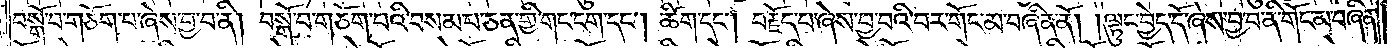བསྒོ་བ་གཅོག་པ་ཞེས་བྱ་བ་ནི། བསྒོ་བ་གཅོག་པའི་བསམ་པ་ཅན་གྱི་གང་ངག་དང༌། ཚིག་དང༌། བརྗོད་པ་ཞེས་བྱ་བའི་བར་གོང་མ་བཞིན་ནོ། །ལྟུང་བྱེད་དོ་ཞེས་བྱ་བ་ནི་གོང་མ་བཞིན་
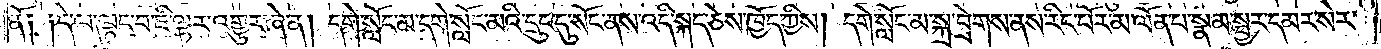ནོ། །དེ་ལ་ལྟུང་བ་ཇི་ལྟར་འགྱུར་ཞེ་ན། དགེ་སློང་མ་དགེ་སློང་མའི་དྲུང་དུ་སོང་ནས་འདི་སྐད་ཅེས་ཁྱོད་ཀྱིས། དགེ་སློང་མ་སྐྲ་བྲེགས་ནས་རིང་པོར་མ་ལོན་པ་སྣམ་སྦྱར་དམར་སེར་
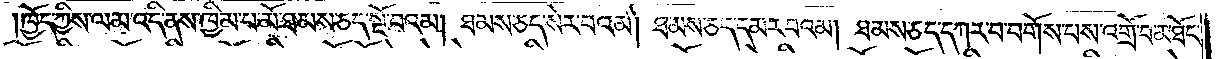ཁྱོད་ཀྱིས་ལམ་འདི་ནས་ཁྱིམ་པ་མོ་ཐམས་ཅད་སྔོ་བའམ། ཐམས་ཅད་སེར་བའམ། ཐམས་ཅད་དམར་བའམ། ཐམས་ཅད་དཀར་བ་བགོས་པས་འགྲོ་བ་མཐོང་
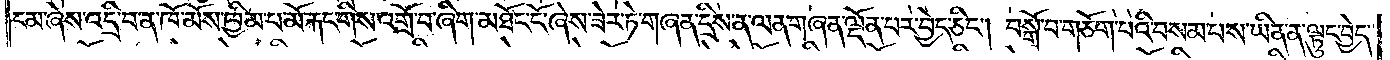ངམ་ཞེས་འདྲི་བ་ན་ཁོ་མོས་ཁྱིམ་པ་མོ་རྐང་གིས་འགྲོ་བ་ཞིག་མཐོང་ངོ་ཞེས་ཟེར་ཏེ་གཞན་དྲིས་ན་ལན་གཞན་ལྡོན་པར་བྱེད་ཅིང༌། བསྒོ་བ་གཅོག་པའི་བསམ་པས་ཡིན་ན་ལྟུང་བྱེད་
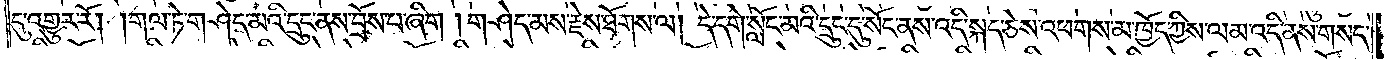དུ་འགྱུར་རོ། །གལ་ཏེ་གཤེད་མའི་དྲུང་ནས་བྲོས་པ་ཞིག །གཤེད་མས་རྗེས་ཐོགས་ལ། དེ་དགེ་སློང་མའི་དྲུང་དུ་སོང་ནས་འདི་སྐད་ཅེས་འཕགས་མ་ཁྱོད་ཀྱིས་ལམ་འདི་ནས་གསད་
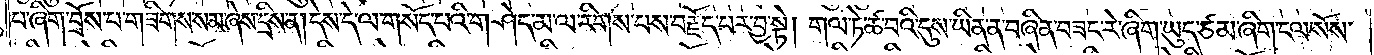པ་ཞིག་བྲོས་པ་གཟིགས་སམ་ཞེས་དྲིས་ན། དེས་དེ་ལ་གསོད་པའི་གཤེད་མ་ལ་རིགས་པས་བརྗོད་པར་བྱ་སྟེ། གལ་ཏེ་ཚ་བའི་དུས་ཡིན་ན་བཞིན་བཟང་རེ་ཞིག་ཡུད་ཙམ་ཞིག་ངལ་སོས་
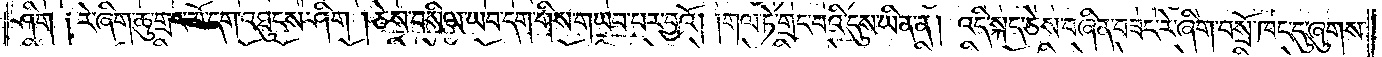ཤིག །རེ་ཞིག་ཆུ་གྲང་མོ་དག་འཐུངས་ཤིག །ཅེས་བསིལ་ཡབ་དག་གིས་གཡབ་པར་བྱའོ། །གལ་ཏེ་གྲང་བའི་དུས་ཡིན་ན། འདི་སྐད་ཅེས་བཞིན་བཟང་རེ་ཞིག་བསྲོ་ཁང་དུ་ཞུགས་
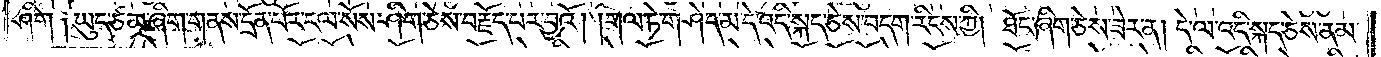ཤིག །ཡུད་ཙམ་ཞིག་གནས་དྲོན་པོར་ངལ་སོས་ཤིག་ཅེས་བརྗོད་པར་བྱའོ། །གལ་ཏེ་གཤེད་མ་དེ་འདི་སྐད་ཅེས་བདག་རིངས་ཀྱི། ཐོང་ཞིག་ཅེས་ཟེར་ན། དེ་ལ་འདི་སྐད་ཅེས་ནམ་
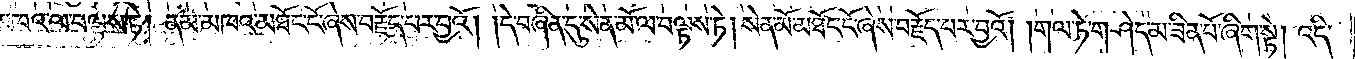མཁའ་ལ་བལྟས་ཏེ། ནམ་མཁའ་མཐོང་ངོ་ཞེས་བརྗོད་པར་བྱའོ། །དེ་བཞིན་དུ་སེན་མོ་ལ་བལྟས་ཏེ། སེན་མོ་མཐོང་ངོ་ཞེས་བརྗོད་པར་བྱའོ། །གལ་ཏེ་གཤེད་མ་ཟིན་པོ་ཞིག་སྟེ། འདི་
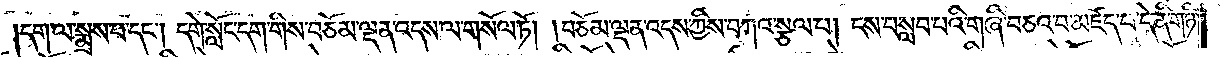ྀྃྃྃདག་ལ་སྨྲས་པ་དང༌། དགེ་སློང་དག་གིས་བཅོམ་ལྡན་འདས་ལ་གསོལ་ཏོ། །བཅོམ་ལྡན་འདས་ཀྱིས་བཀའ་སྩལ་པ། ངས་བསླབ་པའི་གཞི་བཅའ་བ་མཛད་པ་དེ་ནི་གཉི་
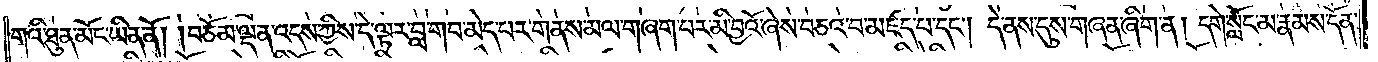གའི་ཐུན་མོང་ཡིན་ནོ། །བཅོམ་ལྡན་འདས་ཀྱིས་དེ་ལྟར་བླ་གབ་མེད་པར་གནས་མལ་གཞག་པར་མི་བྱའོ་ཞེས་བཅའ་བ་མཛད་པ་དང༌། དེ་ནས་དུས་གཞན་ཞིག་ན། དགེ་སློང་མ་རྣམས་དོན་
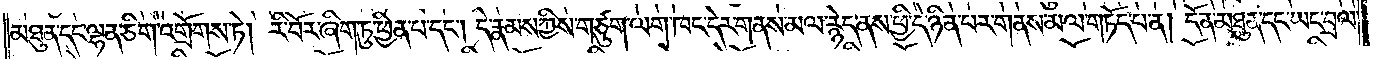མཐུན་དང་ལྷན་ཅིག་འགྲོགས་ཏེ། རི་བོར་ཞིག་ཏུ་ཕྱིན་པ་དང༌། དེ་རྣམས་ཀྱིས་གཙུག་ལག་ཁང་དེར་གནས་མལ་རྙེད་ནས་ཕྱི་དེ་ཉིན་པར་གནས་མལ་གཏོད་པ་ན། དོན་མཐུན་དང་ཡང་བྲལ་
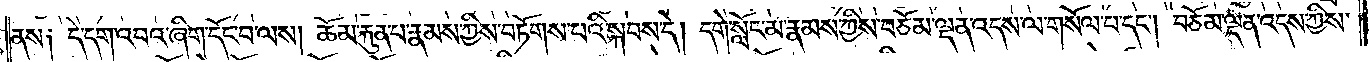ནས། དེ་དག་འབའ་ཞིག་དོང་བ་ལས། ཆོམ་རྐུན་པ་རྣམས་ཀྱིས་བཏོགས་པའི་སྐབས་དེ། དགེ་སློང་མ་རྣམས་ཀྱིས་བཅོམ་ལྡན་འདས་ལ་གསོལ་བ་དང༌། བཅོམ་ལྡན་འདས་ཀྱིས་
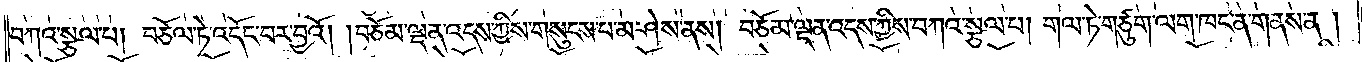བཀའ་སྩལ་པ། བཅོལ་ཏེ་འདོང་བར་བྱའོ། །བཅོམ་ལྡན་འདས་ཀྱིས་གསུངས་པ་མ་ཤེས་ནས། བཅོམ་ལྡན་འདས་ཀྱིས་བཀའ་སྩལ་པ། གལ་ཏེ་གཙུག་ལག་ཁང་ན་གནས་ན།
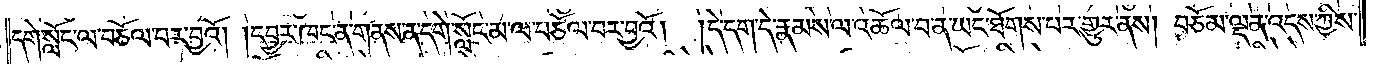དགེ་སློང་ལ་བཅོལ་བར་བྱའོ། །དབྱར་ཁང་ན་གནས་ན་དགེ་སློང་མ་ལ་བཅོལ་བར་བྱའོ། །དེ་དག་དེ་རྣམས་ལ་འཆོལ་བ་ན་ཡང་ཐོགས་པར་གྱུར་ནས། བཅོམ་ལྡན་འདས་ཀྱིས་
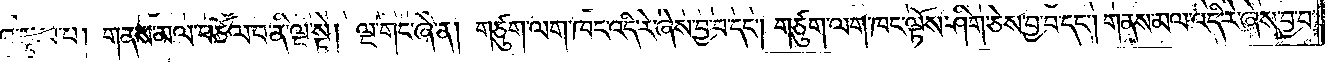འ་སྩལ་པ། གནས་མལ་བཅོལ་བ་ནི་ལྔ་སྟེ། ལྔ་གང་ཞེ་ན། གཙུག་ལག་ཁང་འདི་རེ་ཞེས་བྱ་བ་དང༌། གཙུག་ལག་ཁང་ལྟོས་ཤིག་ཅེས་བྱ་བ་དང༌། གནས་མལ་འདི་རེ་ཞེས་བྱ་བ་
